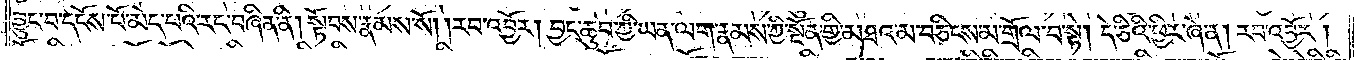བྱུང་བ་དངོས་པོ་མེད་པའི་རང་བཞིན་ནི། སྟོབས་རྣམས་སོ། །རབ་འབྱོར། བྱང་ཆུབ་ཀྱི་ཡན་ལག་རྣམས་ཀྱི་སྔོན་གྱི་མཐའ་མ་བཅིངས་མ་གྲོལ་བ་སྟེ། དེ་ཅིའི་ཕྱིར་ཞེ་ན། རབ་འབྱོར།
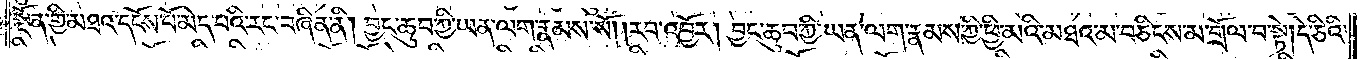སྔོན་གྱི་མཐའ་དངོས་པོ་མེད་པའི་རང་བཞིན་ནི། བྱང་ཆུབ་ཀྱི་ཡན་ལག་རྣམས་སོ། །རབ་འབྱོར། བྱང་ཆུབ་ཀྱི་ཡན་ལག་རྣམས་ཀྱི་ཕྱི་མའི་མཐའ་མ་བཅིངས་མ་གྲོལ་བ་སྟེ། དེ་ཅིའི་
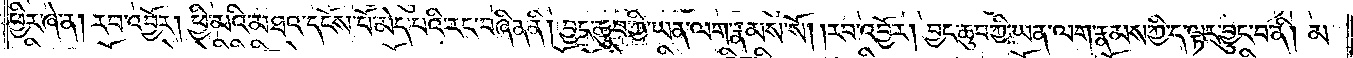ཕྱིར་ཞེ་ན། རབ་འབྱོར། ཕྱི་མའི་མཐའ་དངོས་པོ་མེད་པའི་རང་བཞིན་ནི། བྱང་ཆུབ་ཀྱི་ཡན་ལག་རྣམས་སོ། །རབ་འབྱོར། བྱང་ཆུབ་ཀྱི་ཡན་ལག་རྣམས་ཀྱི་ད་ལྟར་བྱུང་བ་ནི། མ་
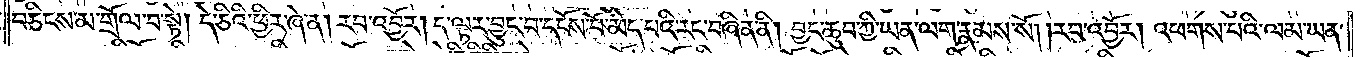བཅིངས་མ་གྲོལ་བ་སྟེ། དེ་ཅིའི་ཕྱིར་ཞེ་ན། རབ་འབྱོར། ད་ལྟར་བྱུང་བ་དངོས་པོ་མེད་པའི་རང་བཞིན་ནི། བྱང་ཆུབ་ཀྱི་ཡན་ལག་རྣམས་སོ། །རབ་འབྱོར། འཕགས་པའི་ལམ་ཡན་
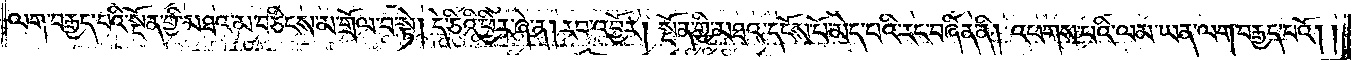ལག་བརྒྱད་པའི་སྔོན་གྱི་མཐའ་མ་བཅིངས་མ་གྲོལ་བ་སྟེ། དེ་ཅིའི་ཕྱིར་ཞེ་ན། རབ་འབྱོར། སྔོན་གྱི་མཐའ་དངོས་པོ་མེད་པའི་རང་བཞིན་ནི། འཕགས་པའི་ལམ་ཡན་ལག་བརྒྱད་པའོ། །
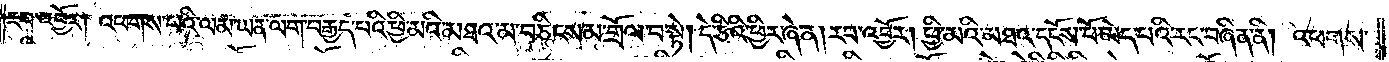རབ་འབྱོར། འཕགས་པའི་ལམ་ཡན་ལག་བརྒྱད་པའི་ཕྱི་མའི་མཐའ་མ་བཅིངས་མ་གྲོལ་བ་སྟེ། དེ་ཅིའི་ཕྱིར་ཞེ་ན། རབ་འབྱོར། ཕྱི་མའི་མཐའ་དངོས་པོ་མེད་པའི་རང་བཞིན་ནི། འཕགས་
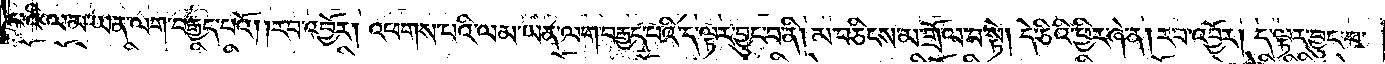པའི་ལམ་ཡན་ལག་བརྒྱད་པའོ། །རབ་འབྱོར། འཕགས་པའི་ལམ་ཡན་ལག་བརྒྱད་པའི་ད་ལྟར་བྱུང་བ་ནི། མ་བཅིངས་མ་གྲོལ་བ་སྟེ། དེ་ཅིའི་ཕྱིར་ཞེ་ན། རབ་འབྱོར། ད་ལྟར་བྱུང་བ་
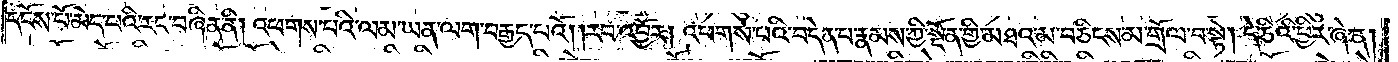དངོས་པོ་མེད་པའི་རང་བཞིན་ནི། འཕགས་པའི་ལམ་ཡན་ལག་བརྒྱད་པའོ། །རབ་འབྱོར། འཕགས་པའི་བདེན་པ་རྣམས་ཀྱི་སྔོན་གྱི་མཐའ་མ་བཅིངས་མ་གྲོལ་བ་སྟེ། དེ་ཅིའི་ཕྱིར་ཞེ་ན།
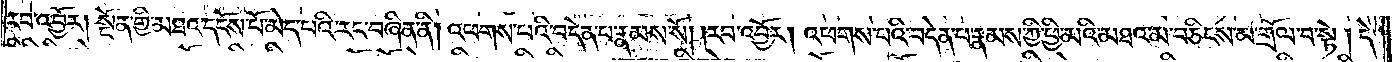རབ་འབྱོར། སྔོན་གྱི་མཐའ་དངོས་པོ་མེད་པའི་རང་བཞིན་ནི། འཕགས་པའི་བདེན་པ་རྣམས་སོ། །རབ་འབྱོར། འཕགས་པའི་བདེན་པ་རྣམས་ཀྱི་ཕྱི་མའི་མཐའ་མ་བཅིངས་མ་གྲོལ་བ་སྟེ། དེ་
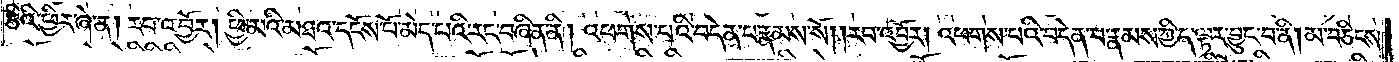ཅིའི་ཕྱིར་ཞེ་ན། རབ་འབྱོར། ཕྱི་མའི་མཐའ་དངོས་པོ་མེད་པའི་རང་བཞིན་ནི། འཕགས་པའི་བདེན་པ་རྣམས་སོ། །རབ་འབྱོར། འཕགས་པའི་བདེན་པ་རྣམས་ཀྱི་ད་ལྟར་བྱུང་བ་ནི། མ་བཅིངས་
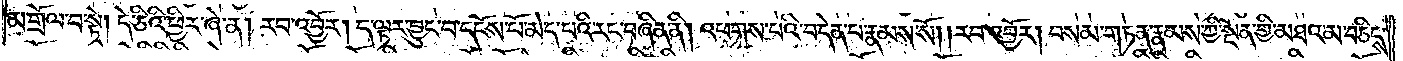མ་གྲོལ་བ་སྟེ། དེ་ཅིའི་ཕྱིར་ཞེ་ན། རབ་འབྱོར། ད་ལྟར་བྱུང་བ་དངོས་པོ་མེད་པའི་རང་བཞིན་ནི། འཕགས་པའི་བདེན་པ་རྣམས་སོ། །རབ་འབྱོར། བསམ་གཏན་རྣམས་ཀྱི་སྔོན་གྱི་མཐའ་མ་བཅིངས་
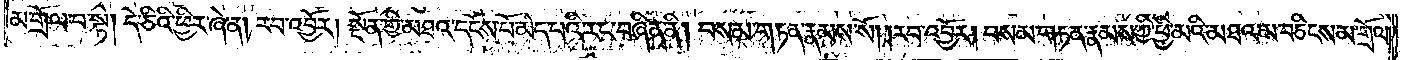མ་གྲོལ་བ་སྟེ། དེ་ཅིའི་ཕྱིར་ཞེ་ན། རབ་འབྱོར། སྔོན་གྱི་མཐའ་དངོས་པོ་མེད་པའི་རང་བཞིན་ནི། བསམ་གཏན་རྣམས་སོ། །རབ་འབྱོར། བསམ་གཏན་རྣམས་ཀྱི་ཕྱི་མའི་མཐའ་མ་བཅིངས་མ་གྲོལ་
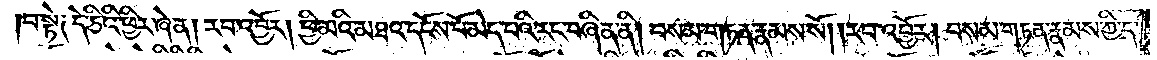བ་སྟེ༑ དེ་ཅིའི་ཕྱིར་ཞེ་ན། རབ་འབྱོར། ཕྱི་མའི་མཐའ་དངོས་པོ་མེད་པའི་རང་བཞིན་ནི། བསམ་གཏན་རྣམས་སོ། །རབ་འབྱོར། བསམ་གཏན་རྣམས་ཀྱི་ད་
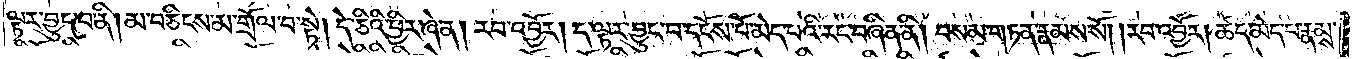ལྟར་བྱུང་བ་ནི། མ་བཅིངས་མ་གྲོལ་བ་སྟེ། དེ་ཅིའི་ཕྱིར་ཞེ་ན། རབ་འབྱོར། ད་ལྟར་བྱུང་བ་དངོས་པོ་མེད་པའི་རང་བཞིན་ནི། བསམ་གཏན་རྣམས་སོ། །རབ་འབྱོར། ཚད་མེད་པ་རྣམས་
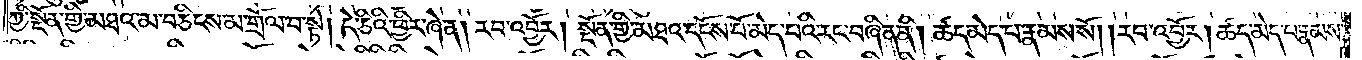ཀྱི་སྔོན་གྱི་མཐའ་མ་བཅིངས་མ་གྲོལ་བ་སྟེ། དེ་ཅིའི་ཕྱིར་ཞེ་ན། རབ་འབྱོར། སྔོན་གྱི་མཐའ་དངོས་པོ་མེད་པའི་རང་བཞིན་ནི། ཚད་མེད་པ་རྣམས་སོ། །རབ་འབྱོར། ཚད་མེད་པ་རྣམས་
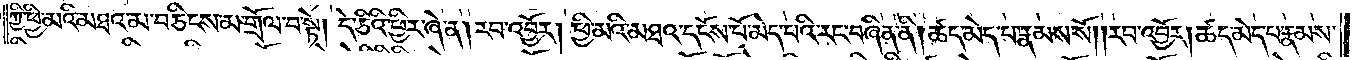ཀྱི་ཕྱི་མའི་མཐའ་མ་བཅིངས་མ་གྲོལ་བ་སྟེ། དེ་ཅིའི་ཕྱིར་ཞེ་ན། རབ་འབྱོར། ཕྱི་མའི་མཐའ་དངོས་པོ་མེད་པའི་རང་བཞིན་ནི། ཚད་མེད་པ་རྣམས་སོ། །རབ་འབྱོར། ཚད་མེད་པ་རྣམས་
